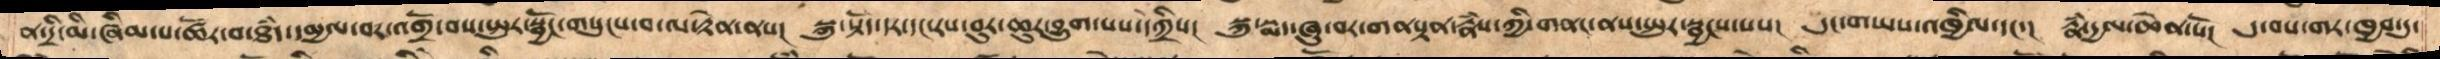ན་དྲི་མི་ཞིམ་པ་ཚོར་བ་ཐཾད་དམྱལ་བར་འགྲོ་བས་སྤུར་སྦྱོང་གསུངས་བ་ལ་རྟེན་ནས།  སྐུ་སྟོད་དར་དང་རས་བུར་ཆུར་བྱུག་པས་དེཀྲིས།  སྐུ་སྨད་ཞུ་བར་གནསྟན་རྣཾས་ཀྱི་གནང་ནས་སྤུར་སྦྱངས་པས།  དུང་གཡས་འཁྱིལ་དང་།  རྣཾ་དྱལ་ཆེན་པོ།  དུ་བས་གར་ཁྱབ་དུ་
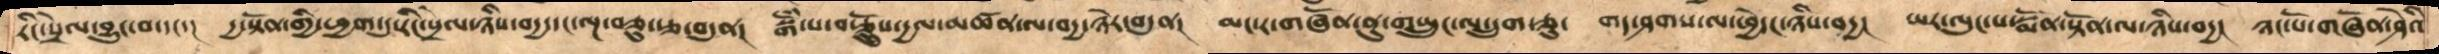རིང་སྲེལ་བྱུང་བ་དང་།  དྱ་སྟོན་གྱི་ཕྱག་དུ་རིང་སྲེལ་ཉིས་བདྱ་དང་ལྔ་བཅུ་རྩ་བདུན།  སྒོཾ་པ་བརྩོནྲུས་དྱལ་མཚན་ལ་བདྱ་ཉེར་བདུན།  མང་ར་གཞོན་ནུ་གཡྲུང་ལ་དྲུག་ཅུ་  གད་ཤགས་ལ་ཕྱེདང་ཉིས་བདྱ།  ཡར་ལུང་པ་སྨོན་སྟོན་ལ་ཉིས་བདྱ།  ཉང་པོ་གཞོན་ཤེའི
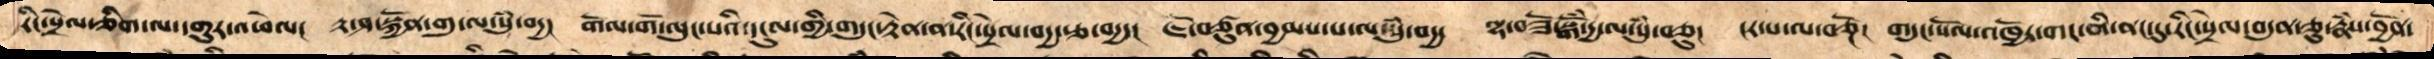རིང་སྲིལ་ཅིག་ལ་དགུར་འཕེལ།  རྟ་ཤ་སྐྱོན་གུ་ལ་སུཾ་བདྱ།  གོལ་གོ་ལུང་པའི་དངུལ་གྱི་གདུང་རྟེན་ན་རིང་སྲེལ་བདྱ་རྩ་བདྱད།   ཇོ་བཙུན་བྱམས་པ་ལ་སུཾ་བདྱ།  ལྷ་བཟོ་སྒོཾ་དྱ་ལ་སུཾ་བཅུ།  ངར་པ་ལ་བཅྔོ།  གདུང་སོལ་འཁྱོར་གང་གི་ནང་དུ་རིང་སྲེལ་བདུན་ཅུ་རྣཾས་བྱོན་
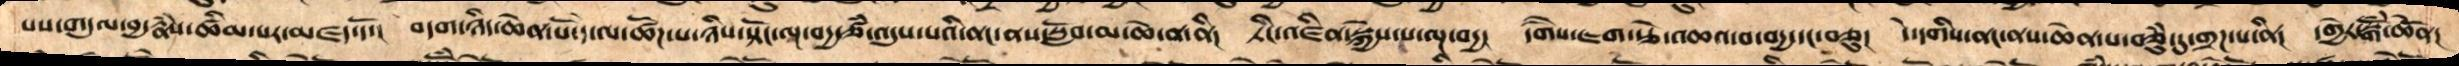པས་གདུལ་བྱ་རྣཾས་ཚིམ་པར་མཛད་དོ་།  བདག་ཉིད་ཆེན་པོ་དེ་ལ་ཚོཌ་པ་ཉིས་སྟོང་ལྔ་བདྱ་ཙཾ་འདུས་པའི་ནང་ནས་སློབ་མ་ཆེ་ན་ནི།  ཏིང་འཛིན་སྐྱེས་པ་ལྔ་བདྱ།  དགཻས་ཇག་རྩེ་འཆའ་བ་བདྱ་དང་བཅུ།  དེ་དགིས་ནང་ནས་ཆེན་པ་བཅུཾ་དུ་གྲཌ་པ་ནི།  དགྱེར་སྒོཾ་ཆེནོ།
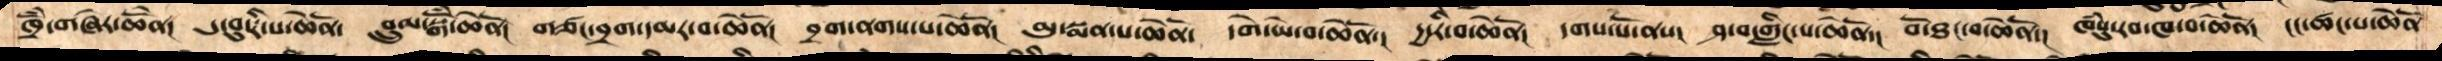ཁྲོཾ་གཞེར་ཆེནོ།  དུ་བུ་རི་པ་ཆེནོ།  བྲུལ་སྒོཾ་ཆེནོ།  གཙང་བྲག་དམར་བ་ཆེནོ།  བྲག་ནགས་པ་ཆེནོ།  མུ་སྨན་པ་ཆེནོ།  དགེ་ཡེ་བ་ཆེནོ་།  དྱ་རི་བ་ཆེནོ།  དགས་པོ་ནས།  ཤ་བ་གླིང་པ་ཆེནོ་།  བོ་ཐང་བ་ཆེནོ་།  ཁཾསུ་རབ་ཁ་བ་ཆེནོ།  ངང་ཚང་པ་ཆེནོ
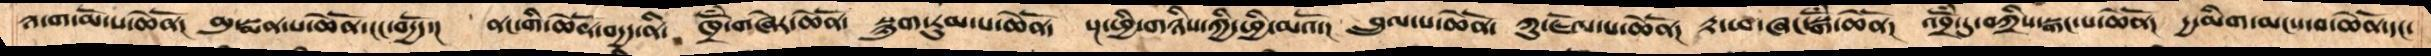ཉ་ག་མོ་ས་ཆེནོ།  མུ་སྨན་པ་ཆེནོ་ངང་བདྱོད་།  ནང་གི་ཆེནོ་བདྱད་ནི་  ཁྲོཾ་གཞེར་ཆེནོ་  སྙུག་རུམ་པ་ཆེནོ་  སྔ་ཕྱི་གཉིས་ཀྱི་ཕྱི་མའོ་།  བྲུལ་པ་ཆེནོ་  ཀུ་ཇོལ་པ་ཆེནོ།  རྟ་ཕ་ཞང་སྒོཾ་ཆེནོ།  འབྲོཾ་དུབཀྲིས་སྒང་པ་ཆེནོ།  དྱ་མིག་མངས་བ་ཆེནོ་དང་
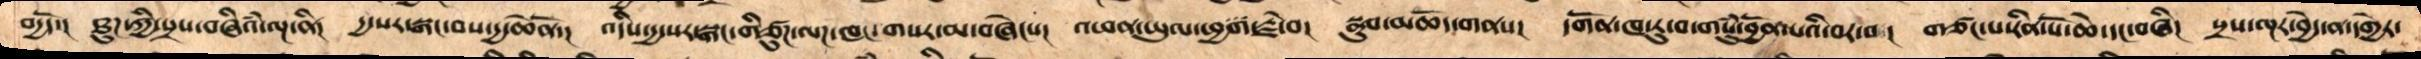བདྱོད་།  ཐུཌ་ཀྱི་སྲས་བཞིའཾ་ལྔ་ནི།  དྱ་སར་སྒང་བས་དྱ་ཆེནོ་།  འདིས་དྱ་སར་སྒང་གི་གཙུཌ་ལཌ་ཁང་གསར་མ་བཞེངས།  འཕན་ཡུལ་ཕྱག་རྗེ་བ།  སྣུབ་མཆོད་གནས།  དགོན་ཁ་རུ་བ་གསུཾ་བྱོན་པའི་བར་བ།  གཙང་པ་རིན་པོ་ཆེ་དང་བཞི།  སྲས་ལྔར་བྱེད་ན་དགྱེར་
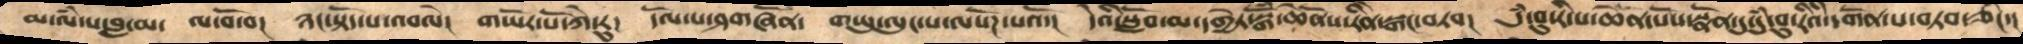མ་ལཾ་པ་བླ་མ་  ལ་བོ་བ།  ཉང་སྟོད་པ་འབེལ།  གཡོར་པོ་ཀེ་རུ།  དོལ་པ་ཤག་ཞོན་   གཡུ་ལུང་པ་ལསོཌ་པའོ་།  དེའི་སློབ་མ་དགྱེར་སྒོཾ་ཆེནོས་རིནེ་སྒང་བཏབ།  དུཾ་བུ་རི་པ་ཆེན་པོས་སྣོན་དུ་དུཾ་བུ་རིནི་དགོན་པ་བཏབ་ཅིང་།
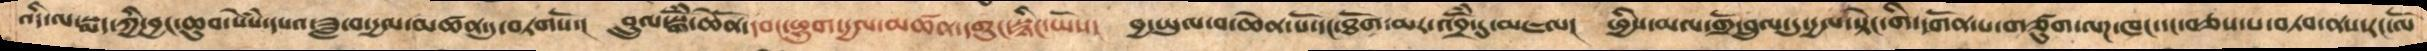འདི་ལ་སྨད་ཀྱི་བྱང་ཆུབ་སེཾས་དཔའ་ཟླ་བ་དྱལ་མཚན་དུ་བཏགསོ་།  བྲུལ་སྒོཾ་ཆེནོ་དབང་ཕྱུག་དྱལ་མཚན་དགུང་སྙིང་ཡོས།  བྱ་ཡུལ་བ་ཆེན་པོ་དང་ཐོག་མར་འབྲོཾ་དུ་མཇལ།  ཕྱིས་མལ་གྲོ་བྲུལ་དུ་དྱལ་སྟེང་གི་དགོན་པ་གཙུག་ལཌ་ཁང་དང་བཅས་པ་བཏབ་ནས་རང་ལོ
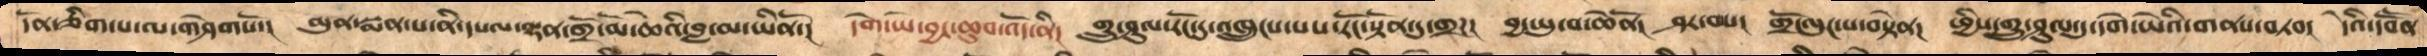དོན་ཅིག་པ་ལ་གཤེགསོ་།  མུན་སྨན་པ་ནི་དཔལ་ལྡན་གྲོ་མོ་ཆེའི་བླ་མ་ཡིནོ་།  དགེ་ཡེ་བྱང་ཆུབ་འོད་ནི།  གྲུ་ཤུལ་རོང་དུ་འཁྲུངས་པས་རོང་སྟོན་དུ་གྲཌ།  བྱ་ཡུལ་བ་ཆེནོ།  ཤར་བས།  གྲོ་ལུང་པ་བསྟེན།  ཕྱིས་གྲུ་ཤུལ་དུ་དགེ་ཡེའི་གནས་བཏབ།  དེའི་དབཽན
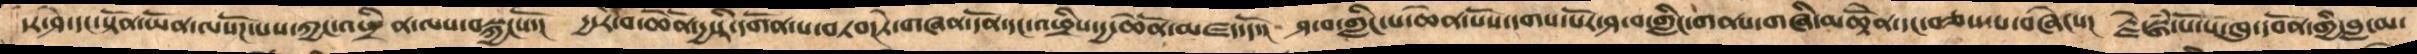དར་ཤེ་དང་སྟོན་ཡོན་ལསོཌ་པས་ཀྱང་འཕྲིན་ལས་བསྐྱངསོ་།  དྱ་རི་བ་ཆེནོ་དྱ་རི་དགོན་པ་བཏབ་ཏེ་གཞན་དོན་དང་འཕྲིས་དྱ་ཆེནོ་མཛད་དོ་།  ཤ་བ་གླིང་པ་ཆེན་པོས་དགས་པོར་ཤ་བ་གླིང་གནས་གཞི་མཆྟོནེ་དང་བཅས་པ་བཞེངས།  རྗེ་སྒཾ་པོ་པ་ཁུ་དབོན་གྱི་བླ་མ་
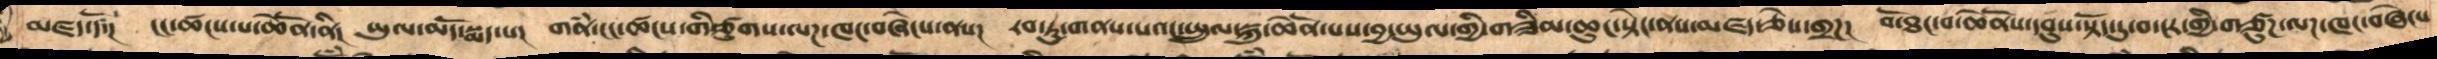མཛད་དོ་།  ངང་ཚངས་པ་ཆེནོ་ནི།  ཡུལ་མདོ་སྨད་པ།  གནཾ་ངང་ཚངས་གིཙུགས་ལཌ་ཁང་བཞེངས་ནས།  རབ་ཏུ་གནས་པའང་སྤྲུལ་སྐུ་ཆེནོ་པས་བྱ་ཡུལ་གྱི་གཟིམ་ཆུང་སྟེང་ནས་མཛད་ཅེས་གྲཌ།  བོ་ཐང་བ་ཆེནོས་དབུས་སྟོད་དུ་བ་ངར་གྱི་གཙུཌ་ལཌ་ཁང་བཞེངས
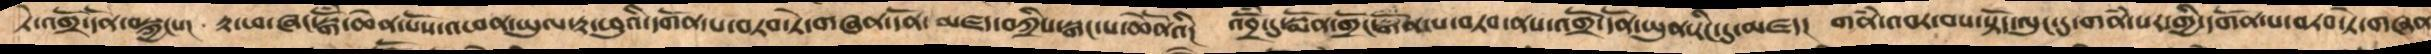ཏེ་འགྲོ་དོན་བསྐྱངས།   རྟ་ཕ་ཞང་སྒོཾ་ཆེན་པོས་འཕན་ཡུལ་རྟ་ཕུའི་དགོན་པ་བཏབ་ཏེ་གཞན་དོན་མཛད་བཀྲིས་སྒང་པ་ཆེནོའི།  འབྲོཾ་དུ་སྨོན་གྲོང་སྒོན་པ་བཏབ་ནས་འགྲོ་དོན་ཡུན་རིང་དུ་མཛད།  གནཾ་འབར་བས་སྟོད་ལུང་དུ་གནཾ་སར་གྱི་དགོན་པ་བཏབ་ཏེ་གཞན
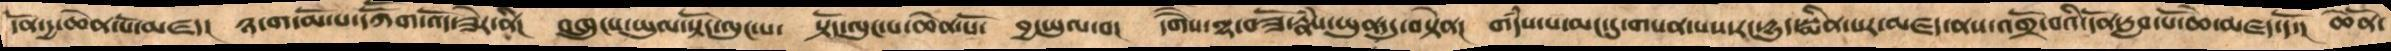དོན་དྱ་ཆེན་པོ་མཛད།  ཉ་ག་མོ་པ་དཀཽག་འོད་ཟེར་ནི།  འཁྲུངས་ཡུལ་སྟོད་ལུང་པ་ སྟོད་ལུང་པ་ཆེན་པོ་  བྱ་ཡུལ་བ།  དགཻས་ལྷ་བཟོ་རྣཾས་ཡུན་དུ་བསྟེན།  གདཾས་པ་མང་དུ་གསན་པས་རང་དྱུད་སྨིན་པར་མཛད་ནས་འགྲོ་བའི་དོན་རླབ་པོ་ཆེ་མཛད་དོ་།  ཆེནོ་
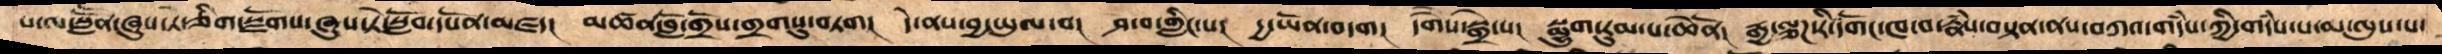པ་ལ་སླཽན་ཞུས་ཏེ་ཅིག་སྫོགས་ཞུས་ཏེ་སློབ་དཔོན་མཛད།  མཚན་བློ་གྲོས་གྲགསུ་བཏག།  དེ་ནས་བྱ་ཡུལ་བ།  ཤ་བ་གླིང་པ།  དྱ་ཡོན་བདག།  དགཻས་སྒྲེ་པ།  སྨྱུག་རུམ་པ་ཆེནོ།  རྒྱ་ལྕཌ་རི་དགོང་ཁ་བ་རྣཾས་བསྟན་ནས་བཀའ་གདཾས་ཀྱི་གདཾས་པ་མ་ལུས་པ་
